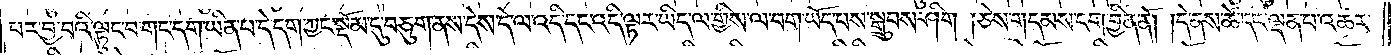པར་བྱ་བའི་ལྟུང་བ་གང་དག་ཡིན་པ་དེ་དག་ཀྱང་སྡོམ་དུ་བཅུག་ནས་དེས་དེ་ལ་འདི་དང་འདི་ལྟར་ཡིད་ལ་གྱིས་ལ་བག་ཡོད་པས་སྒྲུབས་ཤིག །ཅེས་གདམས་ངག་བྱིན་ནོ། །དེ་ནས་ཚེ་དང་ལྡན་པ་འཆར་
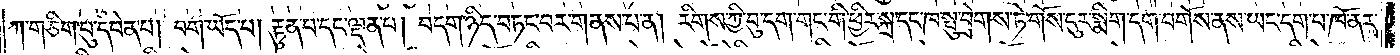ཀ་གཅིག་པུ་དབེན་པ། བག་ཡོད་པ། རྟུན་པ་དང་ལྡན་པ། བདག་ཉིད་བཏང་བར་གནས་པ་ན། རིགས་ཀྱི་བུ་དག་གང་གི་ཕྱིར་སྐྲ་དང་ཁ་སྤུ་བྲེགས་ཏེ་གོས་ངུར་སྨྲིག་དག་བགོས་ནས་ཡང་དག་པ་ཁོ་ནར་
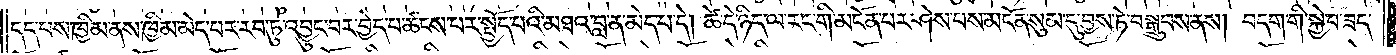དད་པས་ཁྱིམ་ནས་ཁྱིམ་མེད་པར་རབ་ཏུ་འབྱུང་བར་བྱེད་པ་ཚངས་པར་སྤྱོད་པའི་མཐའ་བླ་ན་མེད་པ་དེ། ཚེ་དེ་ཉིད་ལ་རང་གི་མངོན་པར་ཤེས་པས་མངོན་སུམ་དུ་བྱས་ཏེ་བསྒྲུབས་ནས། བདག་གི་སྐྱེ་བ་ཟད་
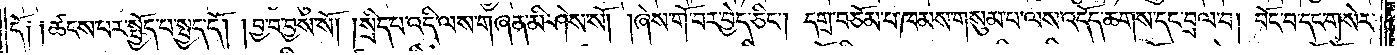དོ༑ ༑ཚངས་པར་སྤྱོད་པ་སྤྱད་དོ། །བྱ་བ་བྱས་སོ། །སྲིད་པ་འདི་ལས་གཞན་མི་ཤེས་སོ། །ཞེས་གོ་བར་བྱེད་ཅིང༌། དགྲ་བཅོམ་པ་ཁམས་གསུམ་པ་ལས་འདོད་ཆགས་དང་བྲལ་བ། བོང་བ་དང་གསེར་
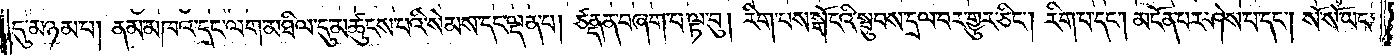དུ་མཉམ་པ། ནམ་མཁའ་དང་ལག་མཐིལ་དུ་མཚུངས་པའི་སེམས་དང་ལྡན་པ། ཙནྡན་བཞག་པ་ལྟ་བུ། རིག་པས་སྒོ་ངའི་སྦུབས་དྲལ་བར་གྱུར་ཅིང༌། རིག་པ་དང༌། མངོན་པར་ཤེས་པ་དང༌། སོ་སོ་ཡང་
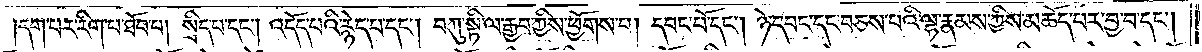དག་པར་རིག་པ་ཐོབ་པ། སྲིད་པ་དང༌། འདོད་པའི་རྙེད་པ་དང༌། བཀུ་སྟི་ལ་རྒྱབ་ཀྱིས་ཕྱོགས་པ། དབང་པོ་དང༌། ཉེ་དབང་དང་བཅས་པའི་ལྷ་རྣམས་ཀྱིས་མཆོད་པར་བྱ་བ་དང༌།
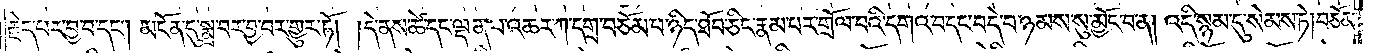རྗེད་པར་བྱ་བ་དང༌། མངོན་དུ་སྨྲ་བར་བྱ་བར་གྱུར་ཏོ། །དེ་ནས་ཚེ་དང་ལྡན་པ་འཆར་ཀ་དགྲ་བཅོམ་པ་ཉིད་ཐོབ་ཅིང་རྣམ་པར་གྲོལ་བའི་དགའ་བ་དང་བདེ་བ་ཉམས་སུ་མྱོང་བ་ན། འདི་སྙམ་དུ་སེམས་ཏེ། བཅོམ་
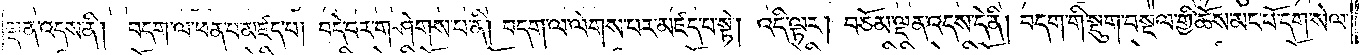ལྡན་འདས་ནི། བདག་ལ་ཕན་པ་མཛད་པ། བདེ་བར་གཤེགས་པ་ནི། བདག་ལ་ལེགས་པར་མཛད་པ་སྟེ། འདི་ལྟར། བཅོམ་ལྡན་འདས་དེ་ནི། བདག་གི་སྡུག་བསྔལ་གྱི་ཆོས་མང་པོ་དག་སེལ་
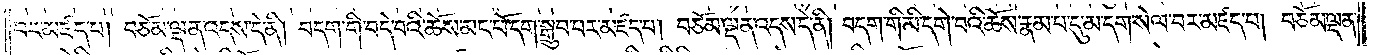བར་མཛད་པ། བཅོམ་ལྡན་འདས་དེ་ནི། བདག་གི་བདེ་བའི་ཆོས་མང་པོ་དག་སྒྲུབ་པར་མཛད་པ། བཅོམ་ལྡན་འདས་དེ་ནི། བདག་གི་མི་དགེ་བའི་ཆོས་རྣམ་པ་དུ་མ་དག་སེལ་བར་མཛད་པ། བཅོམ་ལྡན་
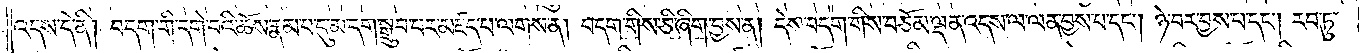འདས་དེ་ནི། བདག་གི་དགེ་བའི་ཆོས་རྣམ་པ་དུ་མ་དག་སྒྲུབ་པར་མཛད་པ་ལགས་ན། བདག་གིས་ཅི་ཞིག་བྱས་ན། དེས་བདག་གིས་བཅོམ་ལྡན་འདས་ལ་ལན་བྱས་པ་དང༌། ཉེ་བར་བྱས་པ་དང༌། རབ་ཏུ་
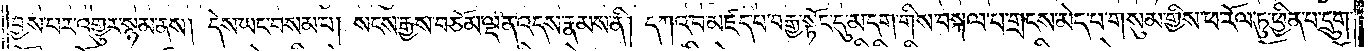བྱས་པར་འགྱུར་སྙམ་ནས། དེས་ཡང་བསམ་པ། སངས་རྒྱས་བཅོམ་ལྡན་འདས་རྣམས་ནི། དཀའ་བ་མཛད་པ་བརྒྱ་སྟོང་དུ་མ་དག་གིས་བསྐལ་པ་གྲངས་མེད་པ་གསུམ་གྱིས་ཕ་རོལ་ཏུ་ཕྱིན་པ་དྲུག་
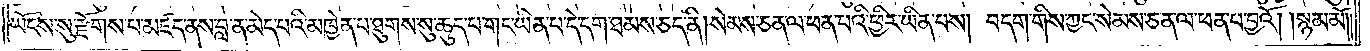ཡོངས་སུ་རྫོགས་པ་མཛད་ནས་བླ་ན་མེད་པའི་མཁྱེན་པ་ཐུགས་སུ་ཆུད་པ་གང་ཡིན་པ་དེ་དག་ཐམས་ཅད་ནི། སེམས་ཅན་ལ་ཕན་པའི་ཕྱིར་ཡིན་པས། བདག་གིས་ཀྱང་སེམས་ཅན་ལ་ཕན་པ་བྱའོ། །སྙམ་མོ༎
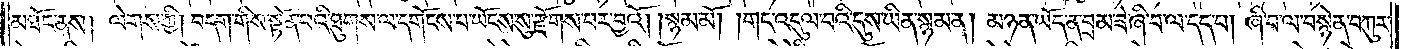མཐོང་ནས། ལེགས་ཀྱི། བདག་གིས་སྟོན་པའི་ཐུགས་ལ་དགོངས་པ་ཡོངས་སུ་རྫོགས་པར་བྱའོ། །སྙམ་མོ། །གང་འདུལ་བའི་དུས་ཡིན་སྙམ་ན། མཉན་ཡོད་ན་བྲམ་ཟེ་ཞི་བ་ལ་དད་པ། ཞི་བ་ལ་བསྙེན་བཀུར་
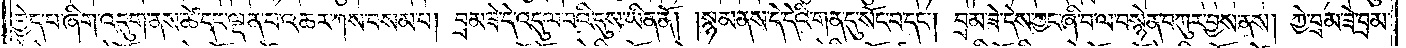བྱེད་པ་ཞིག་འདུག་ནས་ཚེ་དང་ལྡན་པ་འཆར་ཀས་བསམ་པ། བྲམ་ཟེ་དེ་འདུལ་བའི་དུས་ཡིན་ནོ། །སྙམ་ནས་དེ་དེའི་གན་དུ་སོང་བ་དང༌། བྲམ་ཟེ་དེས་ཀྱང་ཞི་བ་ལ་བསྙེན་བཀུར་བྱས་ནས། ཀྱེ་བྲམ་ཟེ་བྲམ་
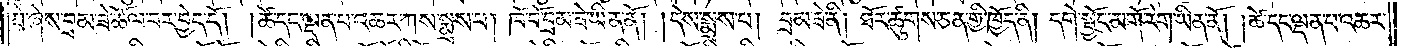ཟེ་ཞེས་བྲམ་ཟེ་ཚོལ་བར་བྱེད་དོ། །ཚེ་དང་ལྡན་པ་འཆར་ཀས་སྨྲས་པ། ཁོ་བོ་བྲམ་ཟེ་ཡིན་ནོ། །དེས་སྨྲས་པ། བྲམ་ཟེ་ནི། ཐོར་ཚུགས་ཅན་གྱི་ཁྱོད་ནི། དགེ་སྦྱོང་མགོ་རེག་ཡིན་ནོ། །ཚེ་དང་ལྡན་པ་འཆར་
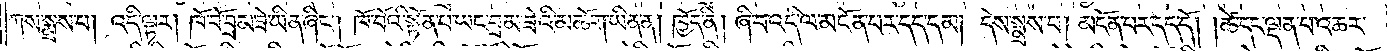ཀས་སྨྲས་པ། འདི་ལྟར། ཁོ་བོ་བྲམ་ཟེ་ཡིན་ཞིང༌། ཁོ་བོའི་སྟོན་པ་ཡང་བྲམ་ཟེའི་མཆོག་ཡིན་ན། ཁྱོད་ནི། ཞི་བ་འདི་ལ་མངོན་པར་དད་དམ། དེས་སྨྲས་པ། མངོན་པར་དད་དོ། །ཚེ་དང་ལྡན་པ་འཆར་
